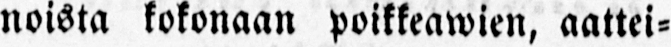noista kokonaan poikkeawien, aattei-
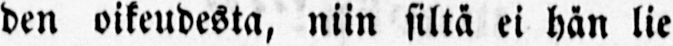den oikeudesta, niin siltä ei hän lie
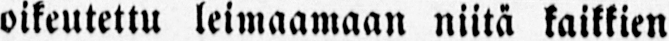oikeutettu leimaamaan niitä kaikkien
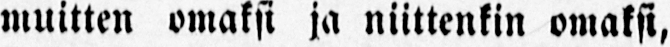muitten omaksi ja niittenkin omaksi,
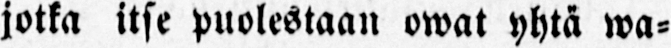jotka itse puolestaan owat yhtä wa-
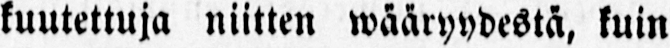kuutettuja niitten wääryydestä, kuin
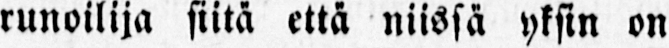runoilija siitä että niissä yksin on
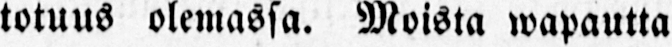totuus olemassa. Moista wapautta
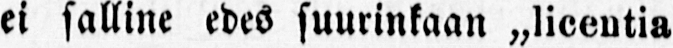ei salline edes suurinkaan „licentia
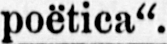poëtica".
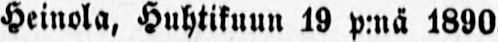Heinola, Huhtikuun 19 p:nä 1890.
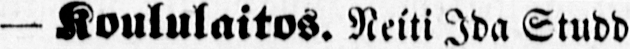— Koululaitos. Neiti Ida Studd
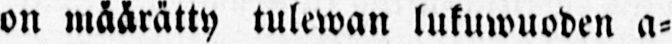on määrätty tulewan lukuwuoden a-
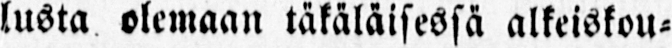lusta olemaan täkäläisessä alkeiskou-
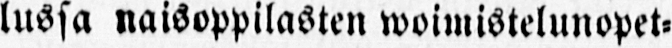lussa naisoppilasten woimistelunopet-
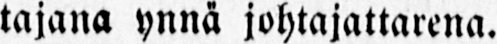tajana ynnä johtajattarena.
